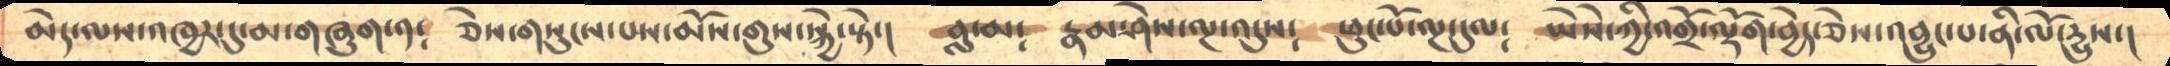མེད་ལས་འཁྱར་དུ་མ་གཞུག་༡༴   ཅེས་གསུངས་པས་མོས་གུས་སྐྱེ་སྟེ་།   བླ་མ༴   རྣམ་ཤེས་ལྔ་འདུས༴  ཕུང་པོ་ལྔ་དུལ༴  ཡེསེ་ཀྱི་འགྲོ་ལྡོག་བྱེད་ཅེས་འབྱུང་པ་ནི་ལོ་དྱུས་།
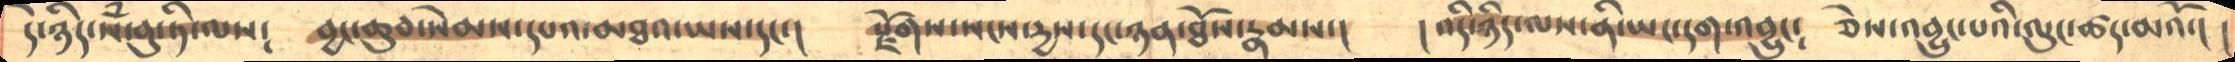དེ་ཉིད་སཾ་བུ་ཏི་ལས༴  བྱང་ཆུབ་སེམས་དཔའ་མཐའ་ཡས་དང་།  རྫོགས་སངས་དྱས་དང་ཉན་ཐོས་རྣམས་།  །འདི་ཉིད་ལས་ནི་ཡང་དག་འབྱུང༴  ཅེས་འབྱུང་པའི་ལུང་ཚད་མའོ་། །
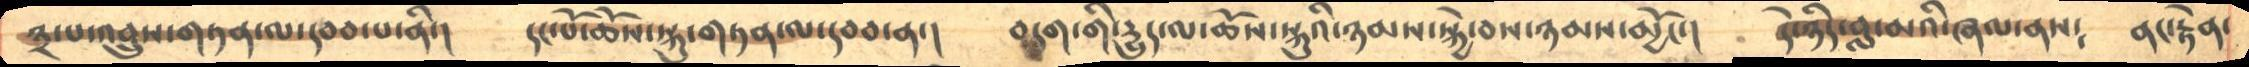༣་པ་འབྲུས་གཏན་ལ་དབབ་པ་ནི་།    དང་པོ་ཆོས་སྐུ་གཏན་ལ་དབབ་ན་།    བདག་གི་རྒྱུད་ལ་ཆོས་སྐུའི་ཉམས་སྐྱེ་བས་ཉམས་མྱོང་།    དེ་ཉིད་བླ་མའི་ཞལ་ནས༴   ནང་རྟེན་
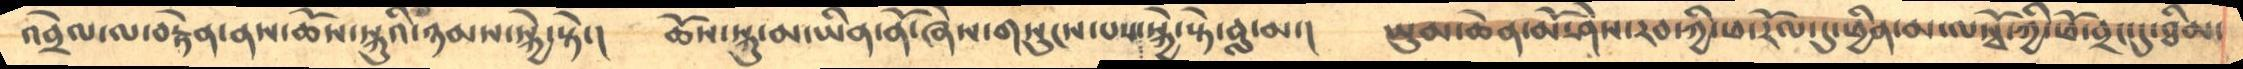འབྲེལ་ལ་བརྟེན་ནས་ཆོས་སྐུའི་ཉམས་སྐྱེ་སྟེ་།    ཆོས་སྐུ་མ་ཡིན་ནོ་ཞེས་གསུང་པས་སྐྱེ་སྟེ་བླ་མ་།    ཡུམ་ཆེན་མོ་ཤེས་རབ་ཀྱི་ཕ་རོལ་དུ་ཕྱིན་མ་ལསྭོ་ཀྱི་ཕོ་བྲང་དུ་ཐིམ་
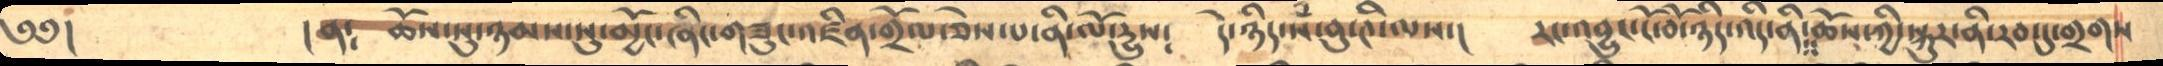༄༅།           །ན༴  ཆོས་སུ་ཉམས་སུ་མྱོང་ཞིང་གཟུང་འཛིན་གྲོལ་ཅེས་པ་ནི་ལོ་རྒྱུས༴    དེ་ཉིད་སཾ་བུ་ཊི་ལས་།    རང་འབྱུང་ངོ་བོ་ཉིད་འདི་ནི༴ཆོས་ཀྱི་སྐུར་ནི་རབ་དུ་གྲགས
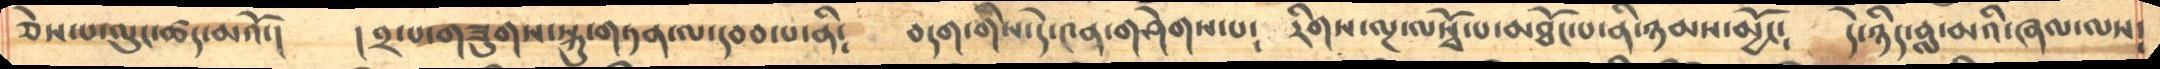ཅེས་པ་ལུང་ཚད་མའོ་།    །༢་པ་གཟུགས་སྐུ་གཏན་ལ་དབབ་པ་ནི༴    བདག་གིསདེ་༤ན་གཤེགས་པ༴   རིགས་ལྔ་ལསྭོ་པ་མཐོང་པ་ནི་ཉམས་མྱོང༴     དེ་ཉིད་བླ་མའི་ཞལ་ལས༴
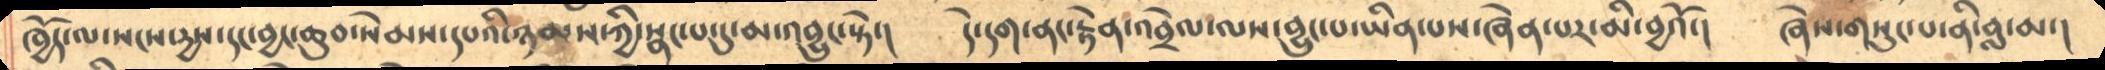ཁྱོད་ལ་སངས་རྒྱས་དང་བྱང་ཆུབ་སེམས་དཔའི་ཉམས་ཀྱི་སྣང་པ་དུ་མ་འབྱུང་སྟེ་།    དེ་དག་ནང་རྟེན་འབྲེལ་ལས་བྱུང་པ་ཡིན་པས་ཞེན་པར་མི་བྱའོ་།    ཞེས་གསུང་པ་ནི་བླ་མ་།
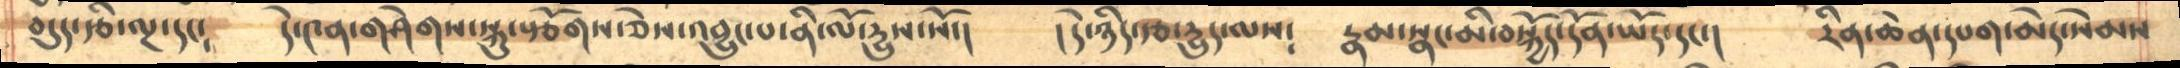བདུད་རྩི་ལྔ་དང༴   དེ་༤ན་གཤེགས་སྐུ་སྩོགས་ཅེས་འབྱུང་པ་ནི་ལོ་དྱུས་སོ་།   །དེ་ཉིད་རྩ་དྱུད་ལས༴   རྣམ་སྣང་མི་བསྐྱོད་དོན་ཡོད་དང་།   རིན་ཆེན་དཔག་མེད་སེམས
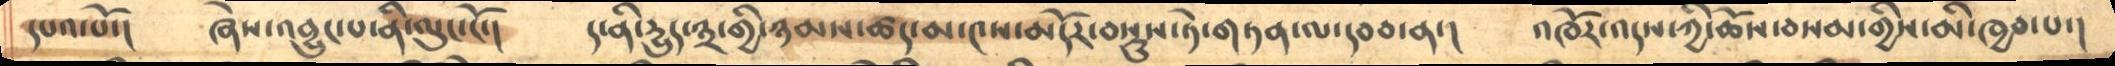དཔའ་པོ་།   ཞེས་འབྱུང་པ་ནི་ལུང་ངོ་།  ད་ནི་དྱུད་༣་གྱི་ཉམས་ཚད་མ་༤ས་མདོར་བསྡུས་ཏེ་གཏན་ལ་དབབ་ན་།   འཁོར་འདས་ཀྱི་ཆོས་བསམ་གྱིས་མི་ཁྱབ་པ་།
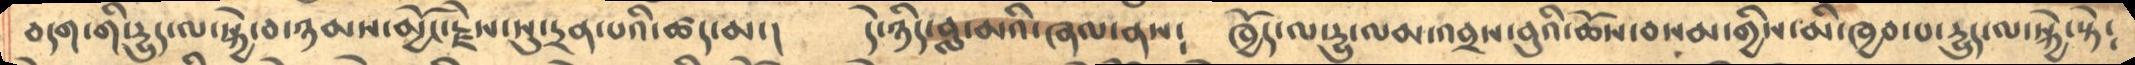བདག་གི་དྱུད་ལ་སྐྱེ་བ་ཉམས་མྱོང་རྗེས་སུ་དྲན་པའི་ཚད་མ་།  དེ་ཉིད་བླ་མའི་ཞལ་ནས༴   ཁྱོད་ལ་དྱུ་ལམ་འབྲས་བུའི་ཆོས་བསམ་གྱིས་མི་ཁྱབ་པ་དྱུད་ལ་སྐྱེ་སྟེ༴
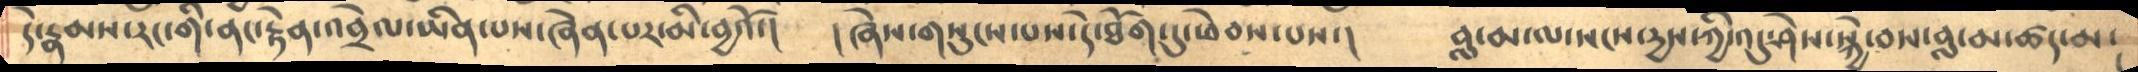དེ་རྣམས་རང་གི་ནང་རྟེན་འབྲེལ་ཡིན་པས་ཞེན་པར་མི་བྱའོ་།   །ཞེས་གསུངས་པས་དེ་ཐོག་དུ་ཕེབས་པས་།   བླ་མ་ལ་སངས་དྱས་ཀྱི་འདུ་ཤེས་སྐྱེ་བས་བླ་མ་ཚད་མ་
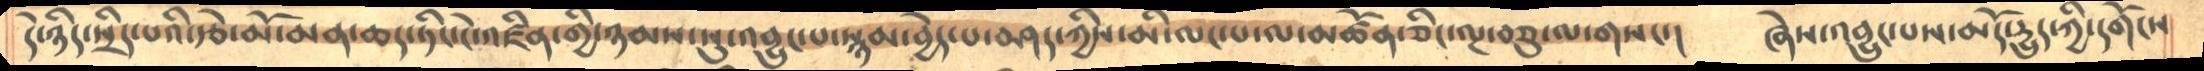དེ་ཉིད་སྲིད་པའི་རྩེ་མོ་མན་ཆད་ཏིང་ངེ་འཛིན་གྱི་ཉམས་སུ་འབྱུང་པ་སྙམ་བྱེད་པ་བཤད་ཀྱིས་མི་ལང་པ་ལ་མཚོན་ཅིང་ལྔ་བཅུ་ལ་གསང་།   ཞེས་འབྱུང་པས་མདོ་དྱུད་ཀྱི་དགོངས
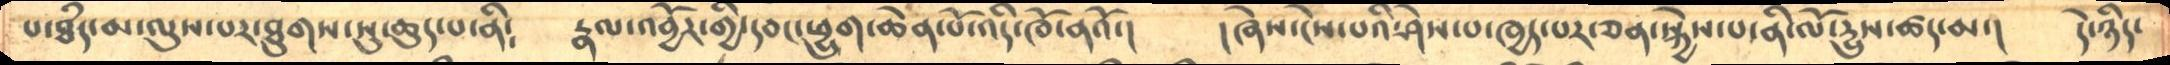པ་ཐཾད་མ་ལུས་པར་ཐུགས་སུ་ཆུད་པ་ནི༴  རྣལ་འབྱོར་གྱི་དབང་ཕྱུག་ཆེན་པོ་འདི་ཁོ་ནའོ་།   །ཞེས་ངེས་པའི་ཤེས་པ་ཁྱད་པར་ཅན་སྐྱེས་པ་ནི་ལོ་དྱུས་ཚད་མ་།  དེ་ཉིད་
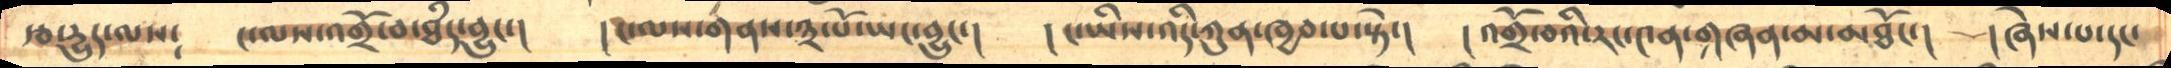རྩ་དྱུད་ལས༴   ང་ལས་འགྲོ་བ་ཐཾད་བྱུང་།   །ང་ལས་གནས་༣་པོ་ཡང་བྱུང་།    །ང་ཡིས་འདི་ཀུན་ཁྱབ་པ་སྟེ་།   །འགྲོ་བའི་རང་༤ན་གཞན་མ་མཐོང་།   །ཞེས་པ་དང་
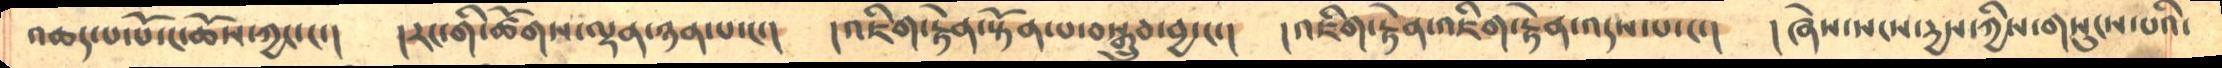འཆད་པ་པོ་ང་ཆོས་ཀྱང་ང་།   །རང་གི་ཚོགས་ལྡན་ཉན་པ་ང་།   །འཇིག་རྟེན་སྟོན་པ་བསྒྲུབ་བྱ་ང་།  །འཇིག་རྟེན་འཇིག་རྟེན་འདས་པ་ང་།   །ཞེས་སངས་དྱས་ཀྱིས་གསུངས་པའི་
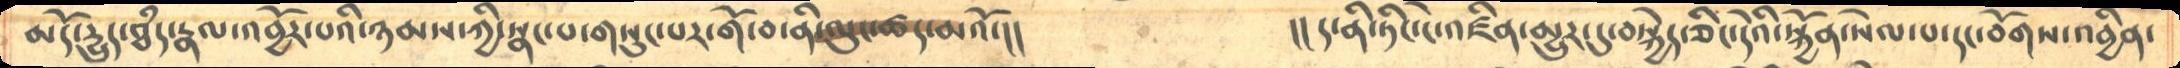མདོ་དྱུད་ཐཾད་རྣལ་འབྱོར་པའི་ཉམས་ཀྱི་སྣང་པ་གསུང་པར་གོ་བ་ནི་ལུང་ཚད་མའོ་།།             །།ད་ནི་ཏིང་ངེ་འཛིན་མྱུར་དུ་བསྐྱེད་ཅིང་དེའི་སྐྱོན་སེལ་པ་དང་བོགས་འབྱིན་
